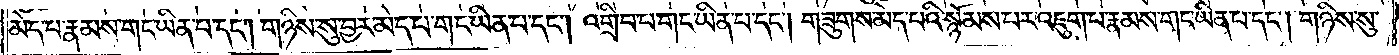མེད་པ་རྣམས་གང་ཡིན་པ་དང༌། གཉིས་སུ་བྱར་མེད་པ་གང་ཡིན་པ་དང༌། འགྲིབ་པ་གང་ཡིན་པ་དང༌། གཟུགས་མེད་པའི་སྙོམས་པར་འཇུག་པ་རྣམས་གང་ཡིན་པ་དང༌། གཉིས་སུ་
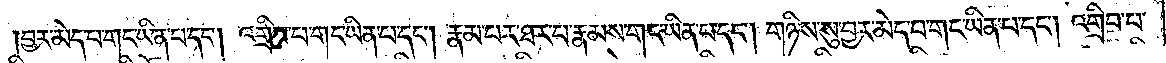བྱར་མེད་པ་གང་ཡིན་པ་དང༌། འགྲིབ་པ་གང་ཡིན་པ་དང༌། རྣམ་པར་ཐར་པ་རྣམས་གང་ཡིན་པ་དང༌། གཉིས་སུ་བྱར་མེད་པ་གང་ཡིན་པ་དང༌། འགྲིབ་པ་
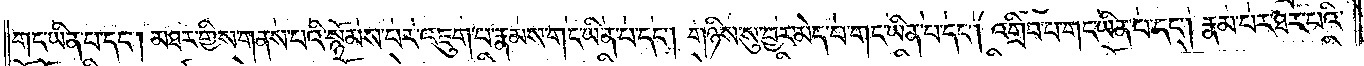གང་ཡིན་པ་དང༌། མཐར་གྱིས་གནས་པའི་སྙོམས་པར་འཇུག་པ་རྣམས་གང་ཡིན་པ་དང༌། གཉིས་སུ་བྱར་མེད་པ་གང་ཡིན་པ་དང༌། འགྲིབ་པ་གང་ཡིན་པ་དང༌། རྣམ་པར་ཐར་པའི་
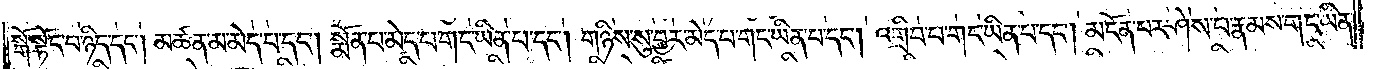སྒོ་སྟོང་པ་ཉིད་དང༌། མཚན་མ་མེད་པ་དང༌། སྨོན་པ་མེད་པ་གང་ཡིན་པ་དང༌། གཉིས་སུ་བྱར་མེད་པ་གང་ཡིན་པ་དང༌། འགྲིབ་པ་གང་ཡིན་པ་དང༌། མངོན་པར་ཤེས་པ་རྣམས་གང་ཡིན་
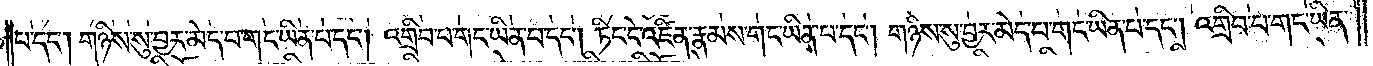པ་དང༌། གཉིས་སུ་བྱར་མེད་པ་གང་ཡིན་པ་དང༌། འགྲིབ་པ་གང་ཡིན་པ་དང༌། ཏིང་ངེ་འཛིན་རྣམས་གང་ཡིན་པ་དང༌། གཉིས་སུ་བྱར་མེད་པ་གང་ཡིན་པ་དང༌། འགྲིབ་པ་གང་ཡིན་
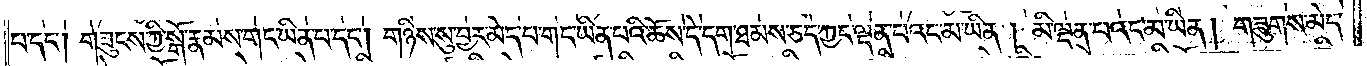པ་དང༌། གཟུངས་ཀྱི་སྒོ་རྣམས་གང་ཡིན་པ་དང༌། གཉིས་སུ་བྱར་མེད་པ་གང་ཡིན་པའི་ཆོས་དེ་དག་ཐམས་ཅད་ཀྱང་ལྡན་པའང་མ་ཡིན། མི་ལྡན་པའང་མ་ཡིན། གཟུགས་མེད་
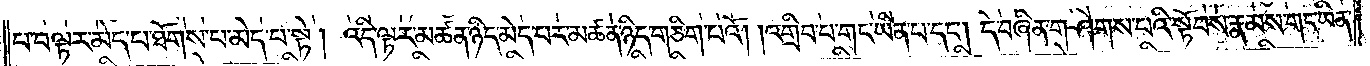པ་བལྟར་མེད་པ་ཐོགས་པ་མེད་པ་སྟེ། འདི་ལྟར་མཚན་ཉིད་མེད་པར་མཚན་ཉིད་གཅིག་པའོ། །འགྲིབ་པ་གང་ཡིན་པ་དང༌། དེ་བཞིན་གཤེགས་པའི་སྟོབས་རྣམས་གང་ཡིན་
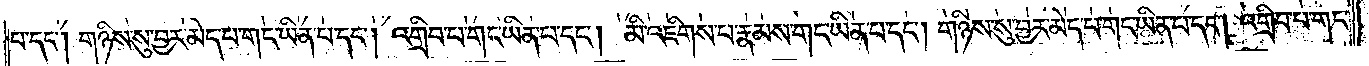པ་དང༌། གཉིས་སུ་བྱར་མེད་པ་གང་ཡིན་པ་དང༌། འགྲིབ་པ་གང་ཡིན་པ་དང་མི་འཇིགས་པ་རྣམས་གང་ཡིན་པ་དང༌། གཉིས་སུ་བྱར་མེད་པ་གང་ཡིན་པ་དང༌། འགྲིབ་པ་གང་
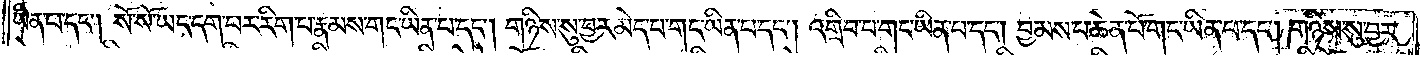ཡིན་པ་དང༌། སོ་སོ་ཡང་དག་པར་རིག་པ་རྣམས་གང་ཡིན་པ་དང༌། གཉིས་སུ་བྱར་མེད་པ་གང་ཡིན་པ་དང༌། འགྲིབ་པ་གང་ཡིན་པ་དང༌། བྱམས་པ་ཆེན་པོ་གང་ཡིན་པ་དང༌། གཉིས་སུ་བྱར་
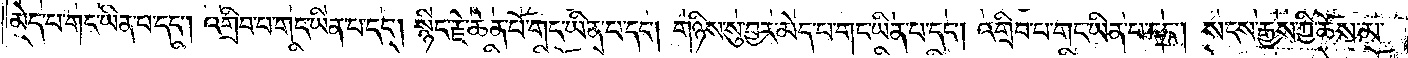མེད་པ་གང་ཡིན་པ་དང༌། འགྲིབ་པ་གང་ཡིན་པ་དང༌། སྙིང་རྗེ་ཆེན་པོ་གང་ཡིན་པ་དང༌། གཉིས་སུ་བྱར་མེད་པ་གང་ཡིན་པ་དང༌། འགྲིབ་པ་གང་ཡིན་པ་དང༌། སངས་རྒྱས་ཀྱི་ཆོས་མ་
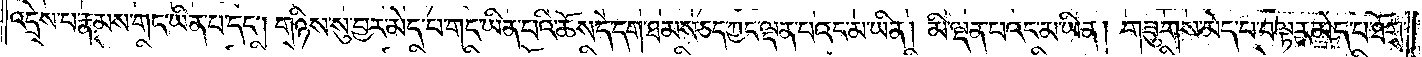འདྲེས་པ་རྣམས་གང་ཡིན་པ་དང༌། གཉིས་སུ་བྱར་མེད་པ་གང་ཡིན་པའི་ཆོས་དེ་དག་ཐམས་ཅད་ཀྱང་ལྡན་པའང་མ་ཡིན། མི་ལྡན་པའང་མ་ཡིན། གཟུགས་མེད་པ་བལྟར་མེད་པ་ཐོགས་
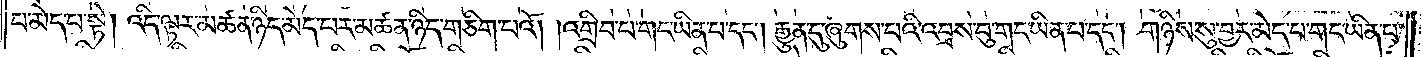པ་མེད་པ་སྟེ། འདི་ལྟར་མཚན་ཉིད་མེད་པར་མཚན་ཉིད་གཅིག་པའོ། །འགྲིབ་པ་གང་ཡིན་པ་དང༌། རྒྱུན་དུ་ཞུགས་པའི་འབྲས་བུ་གང་ཡིན་པ་དང༌། གཉིས་སུ་བྱར་མེད་པ་གང་ཡིན་པ་
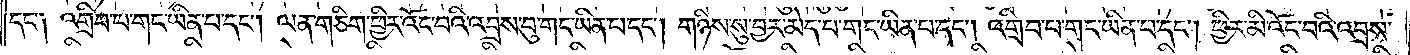དང༌༏ འགྲིབ་པ་གང་ཡིན་པ་དང༌། ལན་ཅིག་ཕྱིར་འོང་བའི་འབྲས་བུ་གང་ཡིན་པ་དང༌། གཉིས་སུ་བྱར་མེད་པ་གང་ཡིན་པ་དང༌། འགྲིབ་པ་གང་ཡིན་པ་དང༌། ཕྱིར་མི་འོང་བའི་འབྲས་
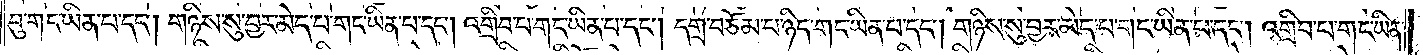བུ་གང་ཡིན་པ་དང༌། གཉིས་སུ་བྱར་མེད་པ་གང་ཡིན་པ་དང༌། འགྲིབ་པ་གང་ཡིན་པ་དང༌། དགྲ་བཅོམ་པ་ཉིད་གང་ཡིན་པ་དང༌། གཉིས་སུ་བྱར་མེད་པ་གང་ཡིན་པ་དང༌། འགྲིབ་པ་གང་ཡིན་
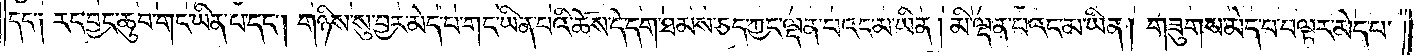དང༌༏ རང་བྱང་ཆུབ་གང་ཡིན་པ་དང༌། གཉིས་སུ་བྱར་མེད་པ་གང་ཡིན་པའི་ཆོས་དེ་དག་ཐམས་ཅད་ཀྱང་ལྡན་པའང་མ་ཡིན། མི་ལྡན་པའང་མ་ཡིན། གཟུགས་མེད་པ་བལྟར་མེད་པ་
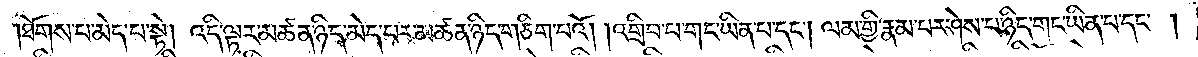ཐོགས་པ་མེད་པ་སྟེ། འདི་ལྟར་མཚན་ཉིད་མེད་པར་མཚན་ཉིད་གཅིག་པའོ། །འགྲིབ་པ་གང་ཡིན་པ་དང༌། ལམ་གྱི་རྣམ་པ་ཤེས་པ་ཉིད་གང་ཡིན་པ་དང༌།
